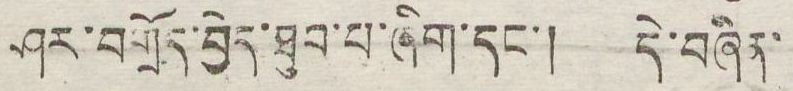ཤར་བགྲོད་བྱེད་ཐུབ་པ་ཞིག་དང་། དེ་བཞིན་
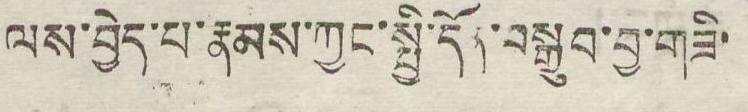ལས་བྱེད་པ་རྣམས་ཀྱང་སྤྱི་དོན་བསྒྲུབ་བྱ་གཟི་
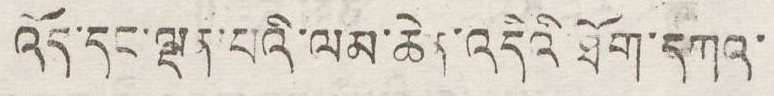འོད་དང་ལྡན་པའི་ལམ་ཆེན་འདིའི་ཐོག་དཀའ་
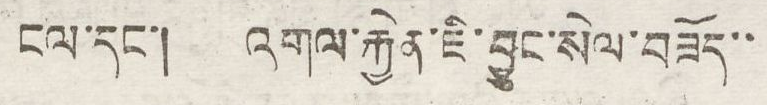ངལ་དང་། འགལ་རྐྱེན་ཇི་བྱུང་སེལ་བཟོད་་
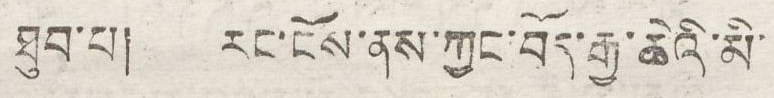ཐུབ་པ། རང་ངོས་ནས་ཀྱང་བོད་རྒྱ་ཆེའི་མི་
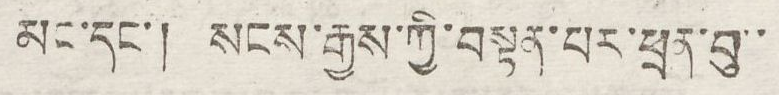མང་དང་། སངས་རྒྱས་ཀྱི་བསྟན་པར་ཕྲན་བུ་་
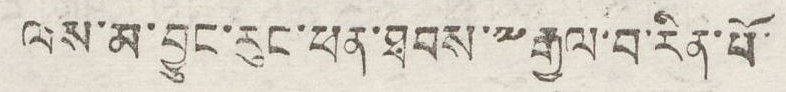ལས་མ་བྱུང་རུང་ཕན་ཐབས་༸རྒྱལ་བ་རིན་པོ་
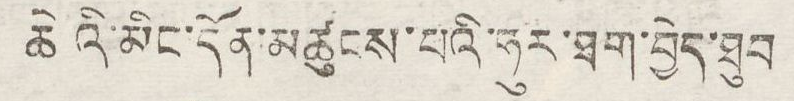ཆེའི་མིང་དོན་མཚུངས་པའི་ཧུར་ཐག་བྱེད་ཐུབ་
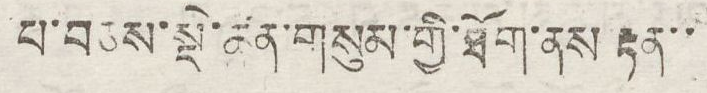པ་བཅས་སྡེ་ཚན་གསུམ་གྱི་ཐོག་ནས རྟན་་་
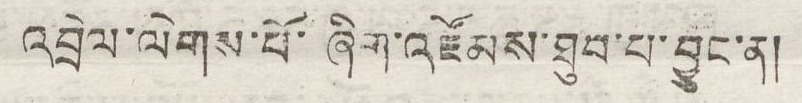འབྲེལ་ལེགས་པོ་ཞིག་འཛོམས་ཐུབ་པ་བྱུང་ན།
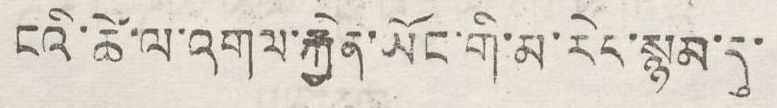ངའི་ཚེ་ལ་འགལ་རྐྱེན་ཡོང་གི་མ་རེད་སྙམ་དུ་
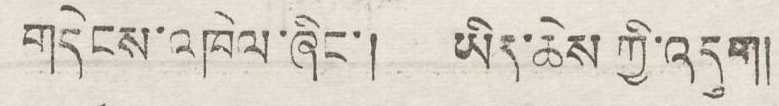གདེངས་འཁེལ་ཞིང་། ཡིད་ཆེས ཀྱི་འདུག།
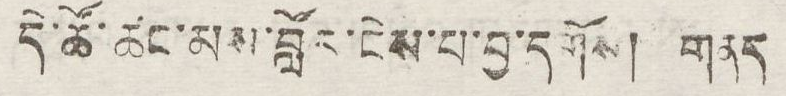དེ་ཚོ་ཚང་མས་བློར་ངེས་པ་བྱ་དགོས། གནད་
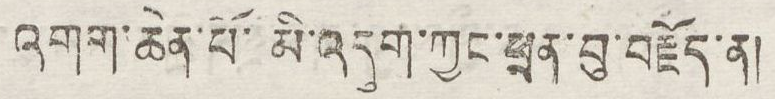འགག་ཆེན་པོ་མི་འདུག་ཀྱང་ཕྲན་བུ་བརྗོད་ན།
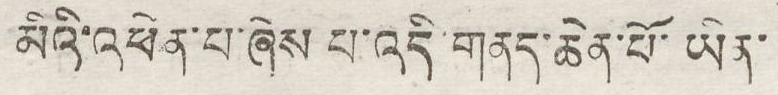མིའི་འཕེན་པ་ཞེས པ་འདི་གནད་ཆེན་པོ་ཡིན་
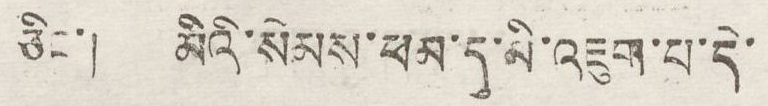ཅིང་། མིའི་སེམས་ཕམ་དུ་མི་འཇུག་པ་དེ་
